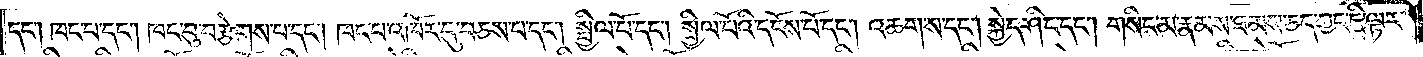དང༌། ཁང་པ་དང༌། ཁང་བུ་བརྩེགས་པ་དང༌། ཁང་པ་འཁོར་དུ་བཅས་པ་དང༌། སྤྱིལ་པོ་དང༌། སྤྱིལ་པོའི་དངོས་པོ་དང༌། འཆགས་དང༌། སྐྱེད་ཤིང་དང༌། གསིང་མ་རྣམས་ཐམས་ཅད་ཀྱང་ཇི་ལྟར་
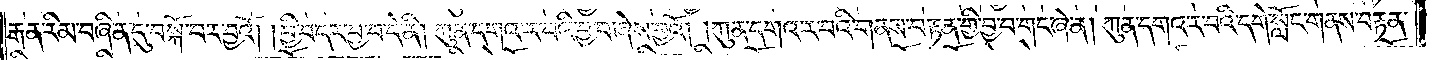རྒན་རིམ་བཞིན་དུ་བསྐོ་བར་བྱའོ། །བྱི་བདར་བྱ་བ་དེ་ནི། ཀུན་དགའ་ར་བའི་བྱ་བ་ཞེས་བྱའོ། །ཀུན་དགའ་ར་བའི་གནས་བརྟན་གྱི་བྱ་བ་གང་ཞེ་ན། ཀུན་དགའ་ར་བའི་དགེ་སློང་གནས་བརྟན་
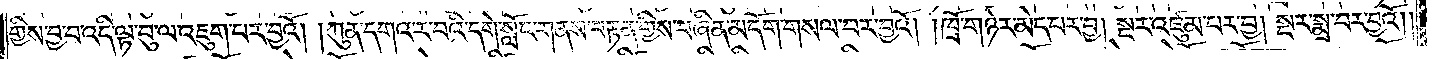གྱིས་བྱ་བ་འདི་ལྟ་བུ་ལ་འཇུག་པར་བྱའོ། །ཀུན་དགའ་ར་བའི་དགེ་སློང་གནས་བརྟན་གྱིས་བཞིན་མདོག་གསལ་བར་བྱའོ། །ཁྲོ་གཉེར་མེད་པར་བྱ། སྔར་འཛུམ་པར་བྱ། སྔར་སྨྲ་བར་བྱའོ། །
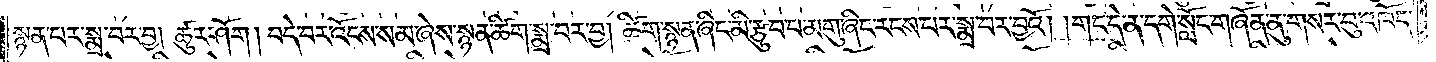སྙན་པར་སྨྲ་བར་བྱ། ཚུར་ཤོག །བདེ་བར་འོངས་སམ་ཞེས་སྙན་ཚིག་སྨྲ་བར་བྱ། ཚིག་སྙན་ཞིང་མི་རྩུབ་པ་མགུ་ཞིང་རངས་པར་སྨྲ་བར་བྱའོ། །གང་དེ་ན་དགེ་སློང་གཞོན་ནུ་གསར་བུ་འཁོད་
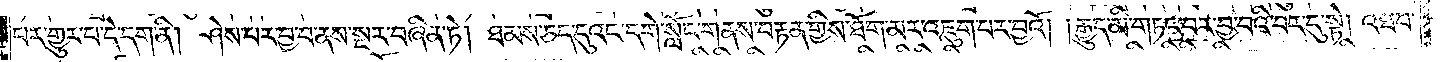པར་གྱུར་པ་དེ་དག་ནི། ཤེས་པར་བྱ་བ་ནས་སྔར་བཞིན་ཏེ། ཐམས་ཅད་དུའང་དགེ་སློང་གནས་བརྟན་གྱིས་ཐོག་མར་འཇུག་པར་བྱའོ། །རྒྱུད་མི་གཏང་བར་བྱ་བའི་བར་དུ་སྟེ། འཐབ་
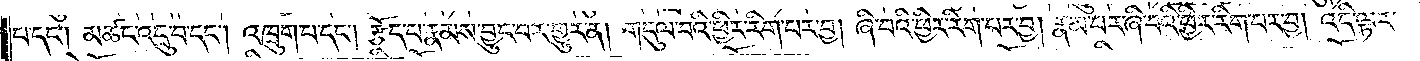པ་དང༌། མཚང་འདྲུ་བ་དང༌། འཁྲུག་པ་དང༌། རྩོད་པ་རྣམས་བྱུང་བར་གྱུར་ན། གདུལ་བའི་ཕྱིར་རིག་པར་བྱ། ཞི་བའི་ཕྱིར་རིག་པར་བྱ། རྣམ་པར་ཞི་བའི་ཕྱིར་རིག་པར་བྱ། འདི་ལྟར་
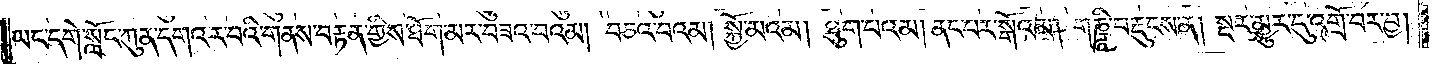ཡང་དགེ་སློང་ཀུན་དགའ་ར་བའི་གནས་བརྟན་གྱིས་ཐོག་མར་བཟའ་བའམ། བཅའ་བའམ། སྐྱོ་མའམ། ཐུག་པའམ། ནང་པར་སྒོའམ། གཎྜཱི་བརྡུངས་ན། སྔར་མྱུར་དུ་འགྲོ་བར་བྱ།
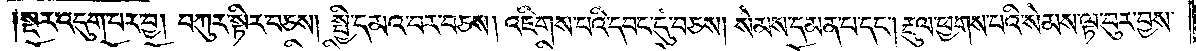སྔར་འདུག་པར་བྱ། བཀུར་སྟིར་བཅས། སྤྱི་དམའ་བར་བཅས། འཇིགས་པའི་དབང་དུ་བཅས། སེམས་དམན་པ་དང༌། རྡུལ་ཕྱགས་པའི་སེམས་ལྟ་བུར་བྱས་
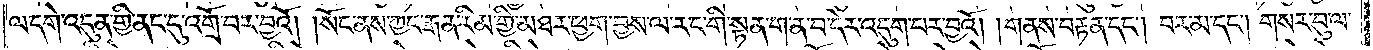ལ་དགེ་འདུན་གྱི་ནང་དུ་འགྲོ་བར་བྱའོ། །སོང་ནས་ཀྱང་རྒན་རིམ་གྱི་མཐར་ཕྱག་བྱས་ལ་རང་གི་སྟན་ག་ན་བ་དེར་འདུག་པར་བྱའོ། །གནས་བརྟན་དང༌། བར་མ་དང༌། གསར་བུ་ལ་
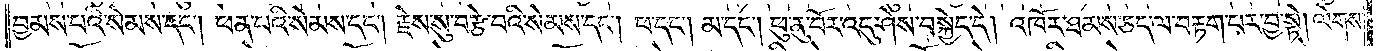བྱམས་པའི་སེམས་དང༌། ཕན་པའི་སེམས་དང༌། རྗེས་སུ་བརྩེ་བའི་སེམས་དང༌། ཕ་དང༌། མ་དང༌། ཕུ་ནུ་བོར་འདུ་ཤེས་བསྐྱེད་དེ། འཁོར་ཐམས་ཅད་ལ་བརྟག་པར་བྱ་སྟེ། ལེགས་
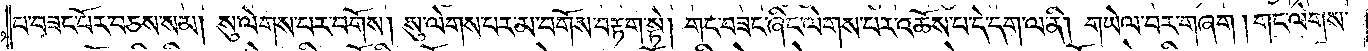པ་བཟང་པོར་བཅས་སམ། སུ་ལེགས་པར་བགོས། སུ་ལེགས་པར་མ་བགོས་བརྟག་སྟེ། གང་བཟང་ཞིང་ལེགས་པར་འཆོས་པ་དེ་དག་ལ་ནི། གཡེལ་བར་གཞག །གང་ལེགས་
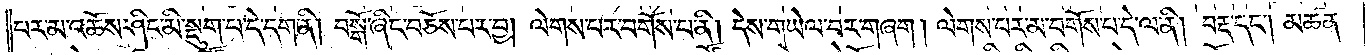པར་མ་འཆོས་ཤིང་མི་སྡུག་པ་དེ་དག་ནི། བསྒོ་ཞིང་བཅོས་པར་བྱ། ལེགས་པར་བགོས་པ་ནི། དེས་གཡེལ་བར་གཞག །ལེགས་པར་མ་བགོས་པ་དེ་ལ་ནི། བརྡ་དང༌། མཚན་
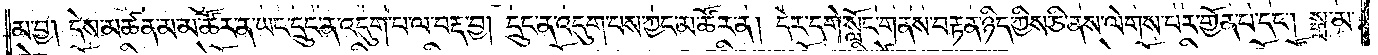མ་བྱ། དེས་མཚན་མ་མ་ཚོར་ན་ཡང་དྲུང་ན་འདུག་པ་ལ་བརྡ་བྱ། དྲུང་ན་འདུག་པས་ཀྱང་མ་ཚོར་ན། དེར་དགེ་སློང་གནས་བརྟན་ཉིད་ཀྱིས་ཅི་ནས་ལེགས་པར་གྱོན་པ་དང༌། སྒྲ་མ་
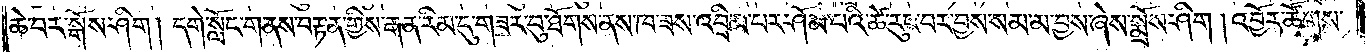ཆེ་བར་སྒོས་ཤིག །དགེ་སློང་གནས་བརྟན་གྱིས་རྒན་རིམ་དུ་གཟར་བུ་ཐོགས་ནས་ཁ་ཟས་འབྲིམ་པར་ཤོམ་པའི་ཚེ་རུང་བར་བྱས་སམ་མ་བྱས་ཞེས་སྨྲོས་ཤིག །འབྱོར་ཚོགས་
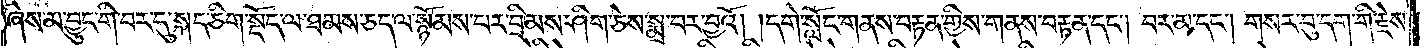ཞེས་མ་བྱུང་གི་བར་དུ་སྐད་ཅིག་སྡོད་ལ་ཐམས་ཅད་ལ་སྙོམས་པར་བྲིམས་ཤིག་ཅེས་སྨྲ་བར་བྱའོ། །དགེ་སློང་གནས་བརྟན་གྱིས་གནས་བརྟན་དང༌། བར་མ་དང༌། གསར་བུ་དག་གི་རྗེས་
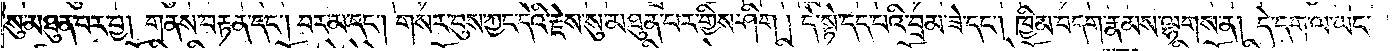སུ་མཐུན་པར་བྱ། གནས་བརྟན་དང༌། བར་མ་དང༌། གསར་བུས་ཀྱང་དེའི་རྗེས་སུ་མཐུན་པར་གྱིས་ཤིག །དེ་སྟེ་དད་པའི་བྲམ་ཟེ་དང༌། ཁྱིམ་བདག་རྣམས་ལྷགས་ན། དེ་དག་ལ་ཡང་
